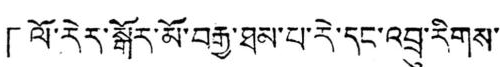「ལོ་རེར་སྒོར་མོ་བརྒྱ་ཐམ་པ་རེ་དང་འབྲུ་རིགས་
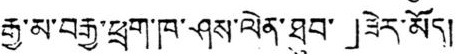རྒྱ་མ་བརྒྱ་ཕྲག་ཁ་ཤས་ལེན་ཐུབ་」ཟེར་མོད།
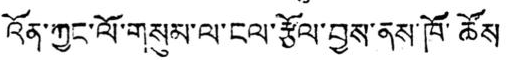འོན་ཀྱང་ལོ་གསུམ་ལ་ངལ་རྩོལ་བྱས་ནས་ཁོ་ཚོས
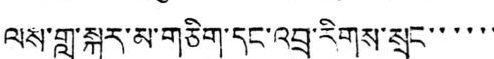ལས་གླ་སྐར་མ་གཅིག་དང་འབྲུ་རིགས་སྲང་་་་་་
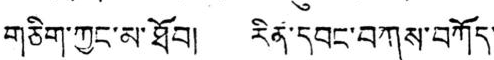གཅིག་ཀྱང་མ་ཐོབ། རིན་དབང་བཀས་བཀོད་
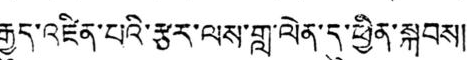རྒྱུད་འཛིན་པའི་རྩར་ལས་གླ་ལེན་དུ་ཕྱིན་སྐབས།
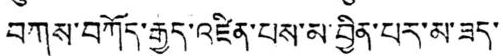བཀས་བཀོད་རྒྱུད་འཛིན་པས་མ་བྱིན་པར་མ་ཟད་
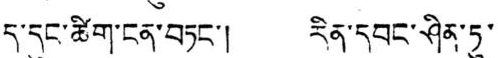ད་དུང་ཚིག་ངན་བཏང་། རིན་དབང་ཤིན་ཏུ་
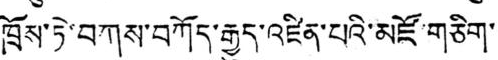ཁྲོས་ཏེ་བཀས་བཀོད་རྒྱུད་འཛིན་པའི་མཛོ་གཅིག་
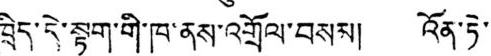ཁྲིད་དེ་སྟག་གི་ཁ་ནས་འགྲོལ་བསམ། འོན་ཏེ་
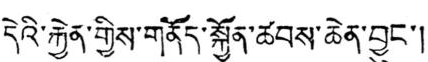དེའི་རྐྱེན་གྱིས་གནོད་སྐྱོན་ཚབས་ཆེན་བྱུང་།
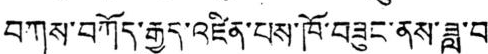བཀས་བཀོད་རྒྱུད་འཛིན་པས་ཁོ་བཟུང་ནས་ཟླ་བ་
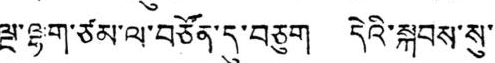ལྔ་ལྷག་ཙམ་ལ་བཙོན་དུ་བཅུག དེའི་སྐབས་སུ་
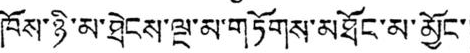ཁོས་ཉི་མ་ཐེངས་ལྔ་མ་གཏོགས་མཐོང་མ་མྱོང་།
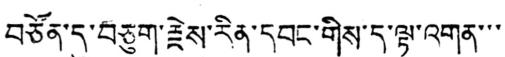བཙོན་དུ་བཅུག་རྗེས་རིན་དབང་གིས་ད་ལྟ་འགན་་་
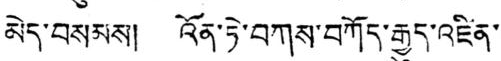མེད་བསམས། འོན་ཏེ་བཀས་བཀོད་རྒྱུད་འཛིན་
